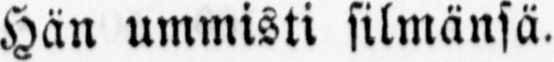Hän ummisti silmänsä.
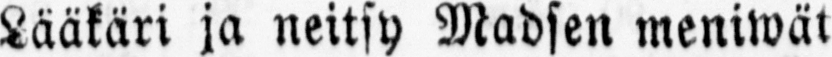Lääkäri ja neitsy Madsen meniwät
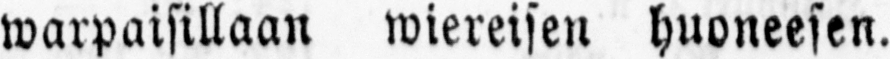warpaisillaan wiereisen huoneesen.
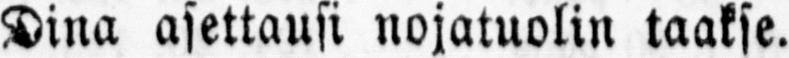Dina asettausi nojatuolin taakse.
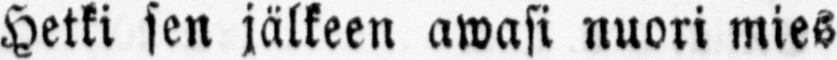Hetki sen jälkeen awasi nuori mies
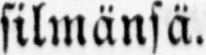silmänsä.
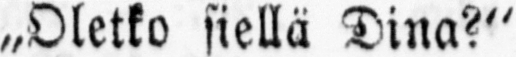„Oletko siellä Dina?"
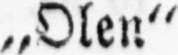„Olen"
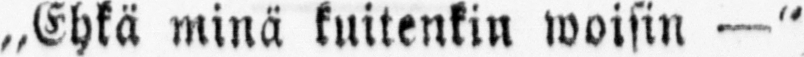„Ehkä minä kuitenkin woisin —"
